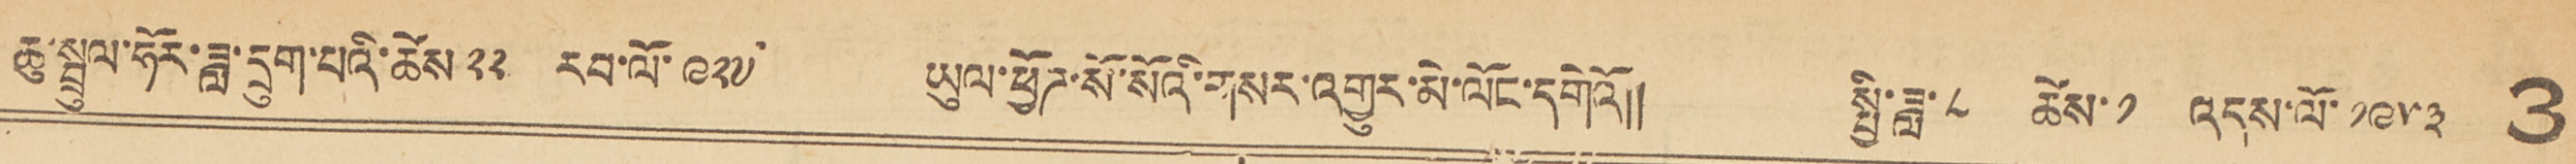ཆུ་སྤྲུལ་ཧོར་ཟླ་དྲུག་པའི་ཚེས ༢༢ རབ་ལོ་༩༢༧ ཡུལ་ཕྱོཌ་སོ་སོའི་གསར་འགྱུར་མེ་ལོང་དགེའོ།། སྤྱི་ཟླ་ ༨ ཚེས་ ༡ འདས་ལོ་ ༡༩༥༣ 3
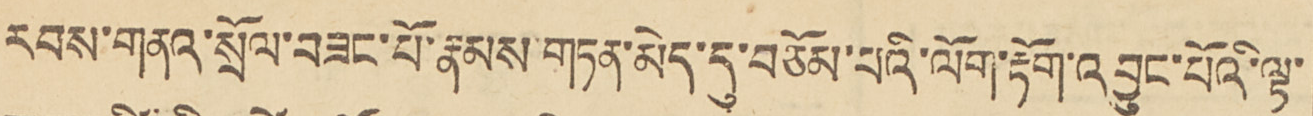རབས་གནའ་སྲོལ་བཟང་པོ་རྣམས་གཏན་མེད་དུ་བཅོམ་པའི་ལོག་རྟོག་འབྱུང་པོའི་ལྟ་
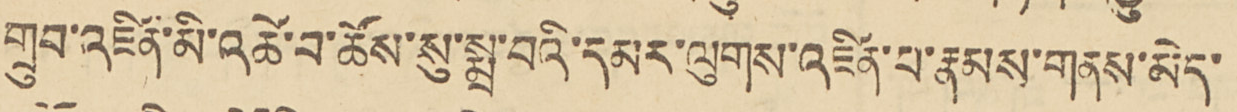གྲུབ་འཛིན་མི་འཚེ་བ་ཚོས་སུ་སྨྲ་བའི་དམར་ལུགས་འཛིན་པ་རྣམས་གནས་མེད་
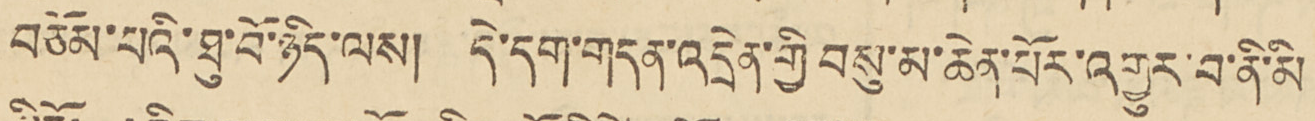བཅོམ་པའི་ཐུ་བོ་ཉིད་ལས། དེ་དག་གདན་འདྲེན་གྱི བསུ་མ་ཆེན་པོར་འགྱུར་བ་ནི་མི
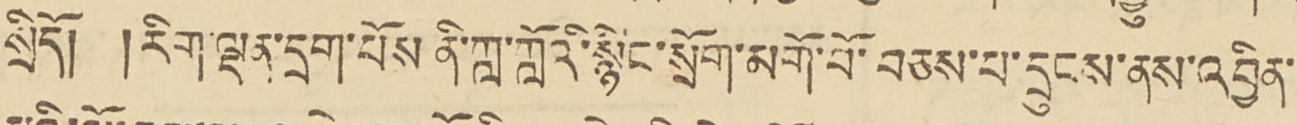སྲིདོ། །རིག་ལྡན་དྲག་པོས ནི་ཀླ་ཀླའི་སྙིང་སྲོག་མགོ་བོ་བཅས་པ་དྲུངས་ནས་འབྱིན་
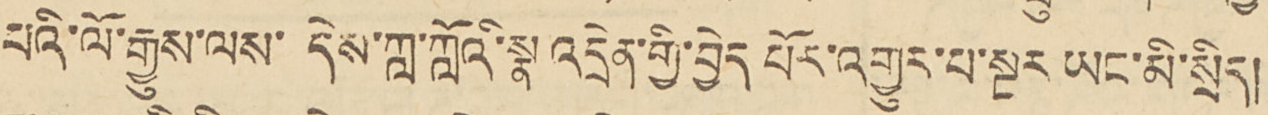པའི་ལོ་རྒྱུས་ལས་དེས་ཀླ་ཀླའི་སྣ འདྲེན་གྱི་བྱེད པོར་འགྱུར་པ་སྔར ཡང་མི་སྲིད།
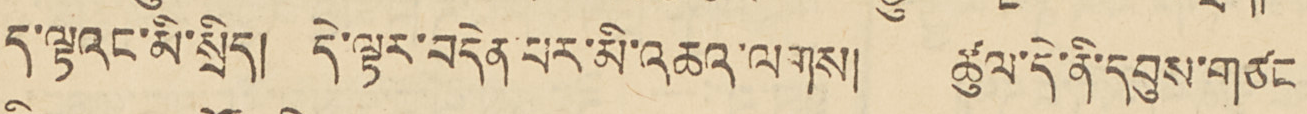ད་ལྟའང་མི་སྲིད། དེ་ལྟར་བདེན་པར་མི་འཆའ་ལགས། ཚུལ་དེ་ནི་དབུགས་གཙང
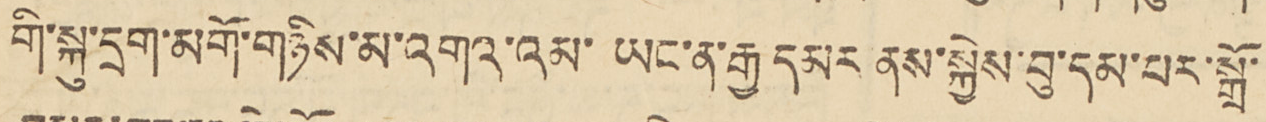གི་སྐུ་དྲག་མགོ་གཉིས་མ་འགའ་འམ་ཡང་ན་རྒྱ དམར ནས་སྐྱེས་བུ་དམ་པར་སྒྲོ་
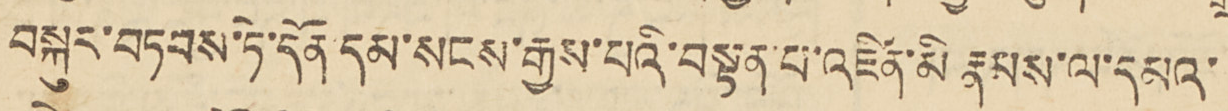བསྐུར་བཏབས་ཏེ་དོན་དམ་སངས་རྒྱས་པའི་བསྟན་པ་འཛིན་མི རྣམས་ལ་དམའ་
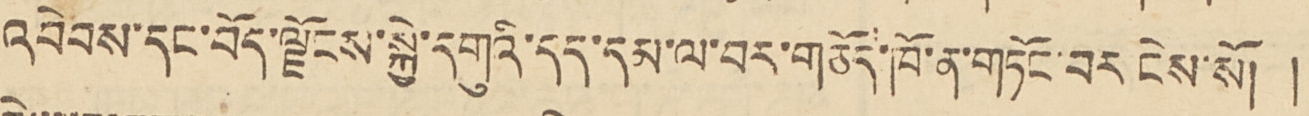འབེབས་དང་བོད་ལྗོངས་སྐྱེ་དགུའི་དད་དམ་ལ་བར་གཅོད་ཁོ་ན་གཏོང་བར ངེས་སོ།།
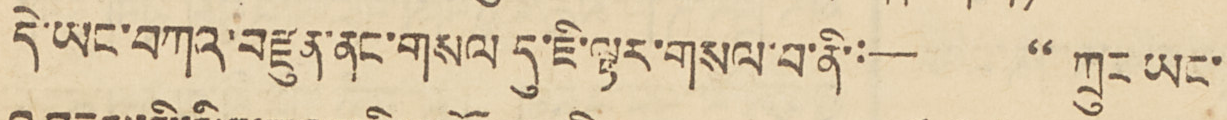དེ་ཡང་བཀའ་བརྫུན་ནང་གསལ དུ་ཇི་ལྟར་གསལ་བ་ནི༜— "ཀྲུང་ཡང་
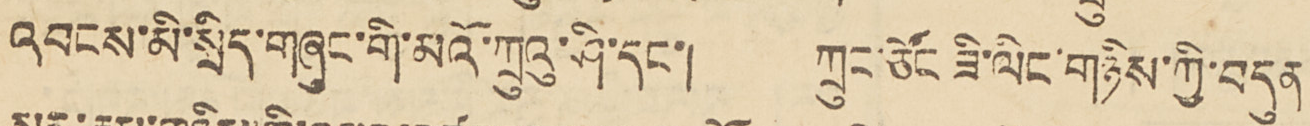འབངས་མི་སྲིད་གཞུང་གི་མའོ་ཀྲུའུ་ཤི་དང་། ཀྲུང་ཙོང ཟི་ལིང་གཉིས་ཀྱི་བདུན
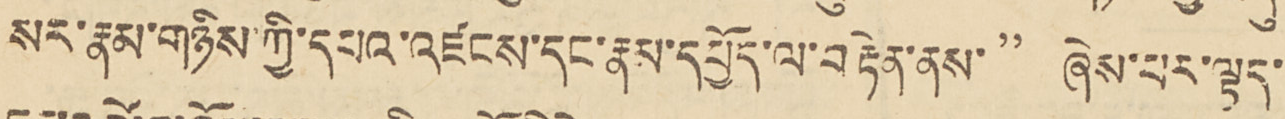སར་རྣམ་གཉིས་ཀྱི་དཔའ་འཛམས་དང་རྣམ་དཔྱོད་ལ་བརྟེན་ནས་" ཞེས་པར་ལྟད་
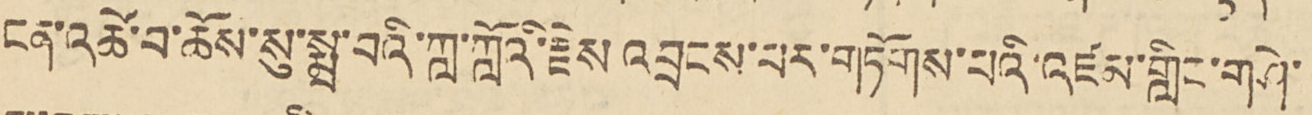ངན་འཚེ་བ་ཆོས་སུ་སྨྲ་བའི་ཀླ་ཀླའི་རྫེས་འབྲངས་པར་གཏོགས་པའི་འཛམ་གླིང་གཤེ་
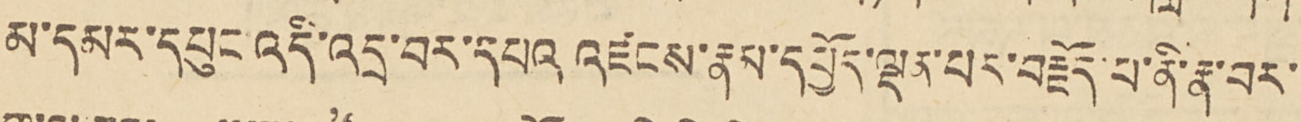མ་དམར་དཔུང་འདི་འདྲ་བར་དཔའ འཛངས་རྣམ་དཔྱོད་ལྡན་པར་བརྗོད་པ་ནི་རྣ་བར་
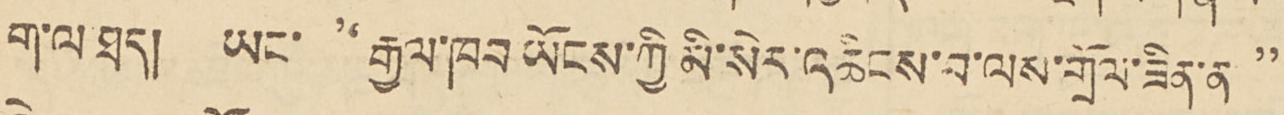ག་ལ ཐད། ཡང་ '' རྒྱལ་ཁབ ཡོངས་ཀྱི མི་སེར་འཆིངས་བ་ལས་གྲོལ་ཟིན་ན "
